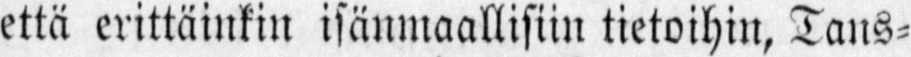että erittäinkin isänmaallisiin tietoihin, Tans-
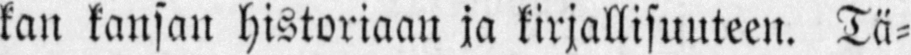kan kansan historiaan ja kirjallisuuteen. Tä-
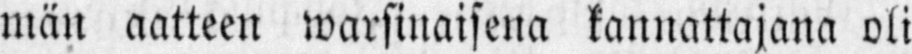män aatteen warsinaisena kannattajana oli
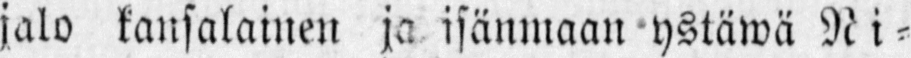jalo kansalainen ja isänmaan ystäwä Ni-
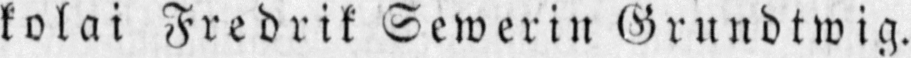kolai Fredrik Sewerin Grundtwig.
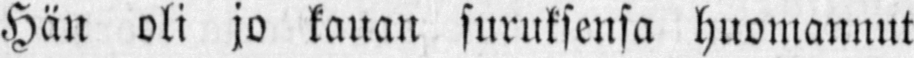Hän oli jo kauan suruksensa huomannut
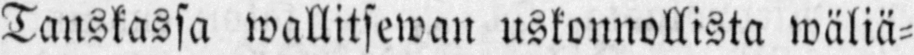Tanskassa wallitsewan uskonnollista wäliä-
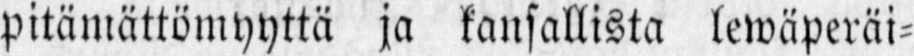pitämättömyyttä ja kansallista lewäperäi-
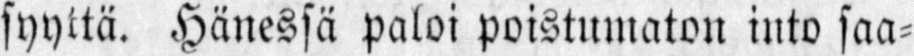syyttä. Hänessä paloi poistumaton into saa-
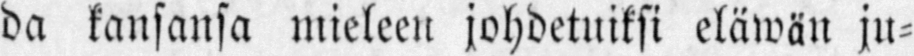da kansansa mieleen johdetuiksi eläwän ju-
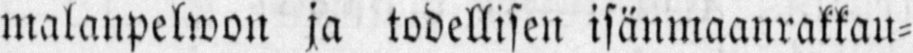malanpelwon ja todellisen isänmaanrakkau-
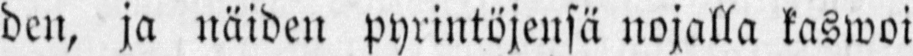den, ja näiden pyrintöjensä nojalla kaswoi
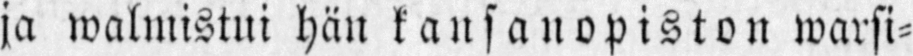ja walmistui hän kansanopiston warsi-
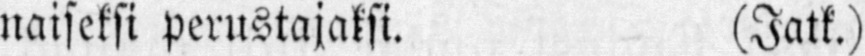naiseksi perustajaksi. (Jatk.)
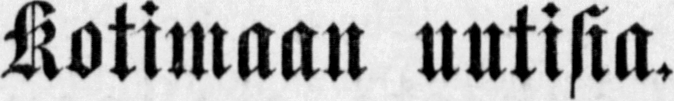Kotimaan uutisia.
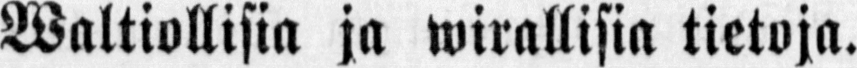Waltiollisia ja wirallisia tietoja.
